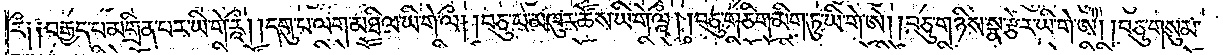རྀ༑ ༑བརྒྱད་པ་མགྲིན་པར་ཡི་གེ་རཱྀ། །དགུ་པ་ལག་མཐིལ་ཡི་གེ་ལྀ། །བཅུ་པ་མཁུར་ཚོས་ཡི་གེ་ལཱྀ། །བཅུ་གཅིག་མིག་ཏུ་ཡི་གེ་ཨེ། །བཅུ་གཉིས་སྣ་རྩེར་ཡི་གེ་ཨཻ། །བཅུ་གསུམ་
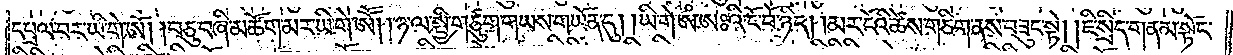དཔྲལ་བར་ཡི་གེ་ཨོ། །བཅུ་བཞི་མཚོག་མར་ཡི་གེ་ཨཽ། །ཉ་ལ་སྤྱི་གཙུག་གཡས་གཡོན་དུ། །ཡི་གེ་ཨཾ་ཨཿའི་ངོ་བོ་ཉིད། །མར་ངོའི་ཚེས་གཅིག་ནས་བཟུང་སྟེ། །ཇི་སྲིད་གནམ་སྟོང་
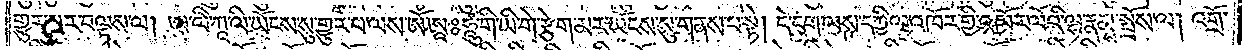གྱུར་པར་བལྟས་ལ། ཨཱ་ལི་ཀཱ་ལི་ཡོངས་སུ་གྱུར་པ་ལས་ཨོཾ་ཨཱཿཧཱུཾ་གི་ཡི་གེ་རྩེག་མར་ཡོངས་སུ་གནས་པ་སྟེ། དེ་དག་ལས་དཀྱིལ་འཁོར་གྱི་འཁོར་ལོའི་ལྷ་རྣམས་སྦྲོས་ལ། འགྲོ་
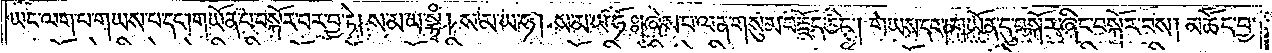ཡང་ལག་པ་གཡས་བ་དང༌། གཡོན་པ་བསྐོར་བར་བྱ་ཏེ། ས་མ་ཡ་སྟྭཾ། ས་མ་ཡ་ཧ། ས་མ་ཡ་ཧོཿ། ཞེས་པ་ལན་གསུམ་བརྗོད་ཅིང༌། གཡས་དང༌། གཡོན་དུ་བསྐོར་ཞིང་བསྐོར་བས། མཆོད་བྱ་
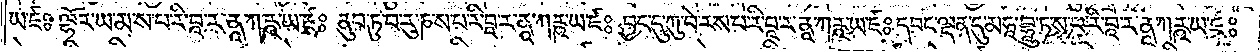ཡ་ཛཿ ལྷོར་ཡ་མ་ས་པ་རི་བཱ་ར་ནཱ་ཀརྵ་ཡ་ཛཿ ནུབ་ཏུ་བ་རུ་ཎ་ས་པ་རི་བཱ་ར་ནཱ་ཀརྵ་ཡ་ཛཿ བྱང་དུ་ཀུ་བེ་ར་ས་པ་རི་བཱ་ར་ནཱ་ཀརྵ་ཡ་ཛཿ དབང་ལྡན་དུ་མཧཱ་བྷཱུ་ཏ་ས་པ་རི་བཱ་ར་ནཱ་ཀརྵ་ཡ་ཛཿ
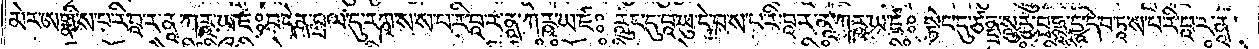མེར་ཨགྣི་ས་པ་རི་བཱ་ར་ནཱ་ཀརྵ་ཡ་ཛཿ བདེན་བྲལ་དུ་རཀྵ་ས་ས་པ་རི་བཱ་ར་ནཱ་ཀརྵ་ཡ་ཛཿ རླུང་དུ་བཱ་ཡུ་དེ་བ་ས་པ་རི་བཱ་ར་ནཱ་ཀརྵ་ཡ་ཛཿ སྟེང་དུ་ཙནྡྲ་སཱུརྱ་བྲཧྨཱ་དྱཱ་དེ་བ་ཏཱ་ས་པ་རི་བཱ་ར་ནཱ་
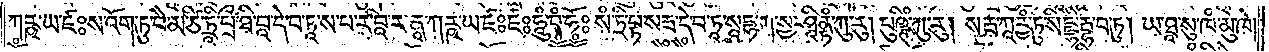ཀཪྵ་ཡ་ཛཿ ས་འོག་ཏུ་བཻ་མ་ཙི་ཏྲཱི་པྲྀ་ཐི་བཱ་དེ་བ་ཏཱ་ས་པ་ར་བཱི་ར་ནཱ་ཀཪྵ་ཡ་ཛཿཛཿ ཧཱུཾ་བཾ་ཧོཿ སཾ་ཏྲི་པྟ་སརྦ་དེ་བ་ཏཱ་སཱདྷ་ཀ་སྱ་ཤཱནྟིཾ་ཀུ་རུ། པུཥྚི་ཀུ་རུ། སརྦ་ཀཱ་ཪྱཾ་ཏུ་སིདྡྷི་རྦྷ་བ་ཏུ། ཡ་ཐཱ་སུ་ཁཾ་མུ་ཁེ།
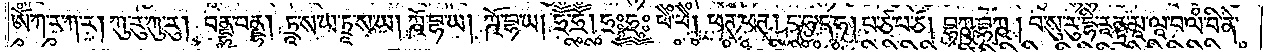ཨོཾ་ཀ་ར་ཀ་ར། ཀུ་རུ་ཀུ་རུ། བནྡྷ་བནྡྷ། ཏྲཱ་ས་ཡ་ཏྲཱ་ས་ཡ། ཀྵོ་བྷ་ཡ། ཀྵོ་བྷ་ཡ། ཧྲཽཾ་ཧྲཽཾ། ཧྲཿཧྲཿ ཕཻཾ་ཕཻཾ། ཕཊ་ཕཊ། ད་ཧ་ད་ཧ། པ་ཙ་པ་ཙ། བྷཀྵ་བྷཀྵ། བ་སུ་རུ་དྷི་རཱནྟྲ་མཱ་ལཱ་བ་ལཾ་བི་ནེ་
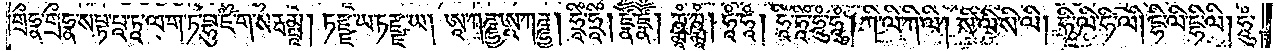གྲྀཧྣ་གྲྀཧྣ་སཔྟ་པཱ་ཏཱ་ལ་ག་ཏ་བྷུ་ཛཾ་ག་སརྦ་མྤཱ། ཏརྫྫ་ཡ་ཏརྫྫ་ཡ། ཨཱ་ཀཌྜྷྱ་ཨཱ་ཀཌྜྷྱ། ཧྲཱིཾ་ཧྲཱིཾ། ཛྣཽཾ་ཛྣཽཾ། ཀྵྨཱཾ་ཀྵྨཱཾ། ཧཱཾ་ཧཱཾ། ཧཱིཾ་ཧཱིཾ་ཧཱུཾ་ཧཱུཾ། ཀི་ལི་ཀི་ལི། སི་ལི་སི་ལི། ཧི་ལི་ཧི་ལི། དྷི་ལི་དྷི་ལི། ཧཱུཾ་
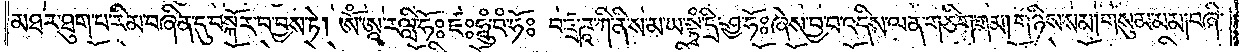མཐར་ཐུག་པ་རིམ་བཞིན་དུ་བསྐོར་བ་བྱས་ཏེ། ཨོཾ་ཨཱ་རལླི་ཧོཿ ཛཿ ཧཱུཾ་བཾ་ཧོཿ བཛྲ་ཌཱ་ཀི་ནི་ས་མ་ཡ་སྟྭཾ་དྲི་ཤྱ་ཧོཿཞེས་བྱ་བ་འདིས་ལན་གཅིག་གམ། གཉིས་སམ། གསུམ་མམ། བཞི་
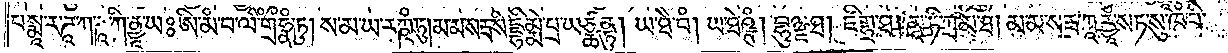པསྨཱ་ར་ཌཱ་ཀ་ཌཱ་ཀི་ནྱཱ་ཡཿཨི་མཾ་བ་ལིཾ་གྲྀཧྣཾ་ཏུ། ས་མ་ཡ་རཀྵཾ་ཏུ། མ་མ་སརྦ་སིདྡྷིམྨེ་པྲ་ཡཙྪ་ནྟུ། ཡ་ཐཻ་བཾ། ཡ་ཐེཥྚཾ། བྷུཉྫ་ཐ། ཛིགྷྲ་ཐ། མཱ་ཏི་ཀྲ་མ་ཐ། མ་མ་སརྦ་ཀཱརྱཱཾ་སཏ་སུ་ཁཾ་བི་
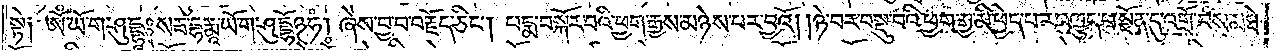སྟེ༑ ཨོཾ་ཡོ་ག་ཤུདྡྷཱཿསརྦ་དྷརྨཱ་ཡོ་ག་ཤུདྡྷོཉཧཾ། ཞེས་བྱ་བ་བརྗོད་ཅིང༌། པདྨ་བསྐོར་བའི་ཕྱག་རྒྱས་མཉེས་པར་བྱའོ། །ཉེ་བར་བསྡུ་བའི་ཕྱག་རྒྱ་མི་ཕྱེད་པར་འཁྱུད་པ་སྔོན་དུ་འགྲོ་བས་མཐེ་
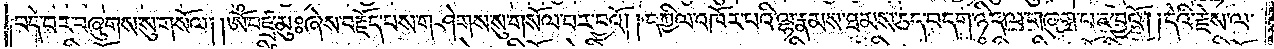བདེ་བར་བཞུགས་སུ་གསོལ། །ཨོཾ་བཛྲ་མུཿ ཞེས་བརྗོད་པས་གཤེགས་སུ་གསོལ་བར་བྱའོ། །དཀྱིལ་འཁོར་པའི་ལྷ་རྣམས་ཐམས་ཅད་བདག་ཉིད་ལ་གཞུག་པར་བྱའོ། །དེའི་རྗེས་ལ་
